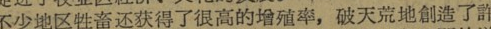不少地区牲畜还获得了很高的增殖率，破天荒地創造了许
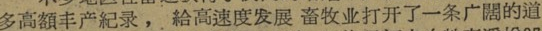多高額丰产紀录，給高速度发展畜牧业打开了一条广闊的道
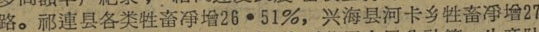路。祁連县各类牲畜凈增26・51％，兴海县河卡乡牲畜凈增27
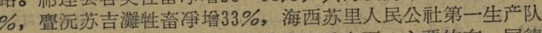％，亹沅苏吉灘牲畜凈增33％，海西苏里人民公社第一生产队
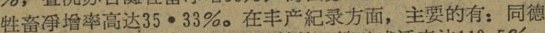牲畜凈增率高达35・33％。在丰产紀录方面，主要的有：同德
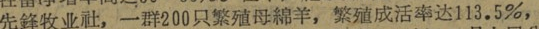先鋒牧业社，一群200只繁殖母綿羊，繁殖成活率达113.5％，
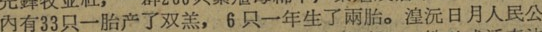内有33只一胎产了双羔，6只一年生了兩胎。湟沅日月人民公
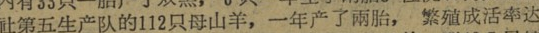社第五生产队的112只母山羊，一年产了兩胎，繁殖成活率达
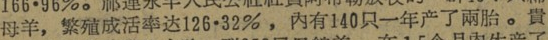母羊，繁殖成活率达126・32％，内有140只一年产了兩胎。貴
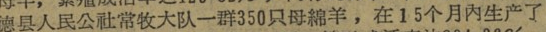德县人民公社常牧大队一群350只母綿羊，在15个月内上产了
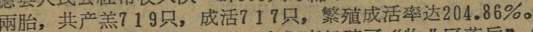兩胎，共产羔719只，成活717只，繁殖成活率达204.86％。
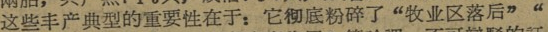这些丰产典型的重要性在于：它彻底粉碎了“牧业区落后”“
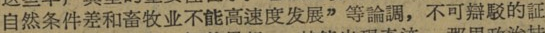自然条件差和牧业区不能高速度发展”等論調，不可辯駁的証
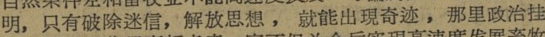明，只有破除迷信，解放思想，就能出現奇迹，那里政治挂
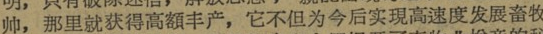帅，那里就获得高額丰产，它不但为今后实現高速度发展畜牧
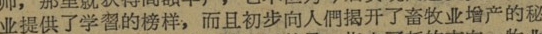业提供了学習的榜样，而且初步向人們揭开了畜牧业增产的秘
